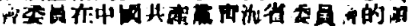會委員在中國共產黨靑海省委員會的領
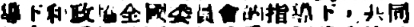導下和政協全國委員會的指導下，共同
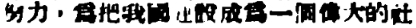努力，爲把我國建設成爲一個偉大的社
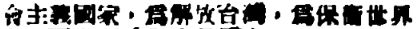會主義國家，爲解放台灣，爲保衛世界
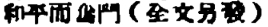和平而奮鬥（全文另發）
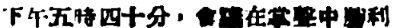下午五時四十分，會議在掌聲中勝利
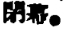閉幕。
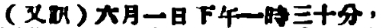（又訊）六月一日下午一時三十分，
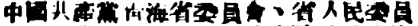中國共產黨靑海省委員會、省人民委員
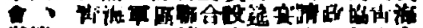會 、靑海軍區聯合設筵宴請政協靑海
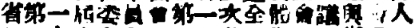省第一屆委員會第一次全體會議與會人
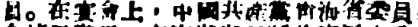員。在宴會上，中國共產黨靑海省委員
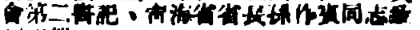會第二書記、靑海省省長孫作賓同志致
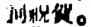詞祝賀。
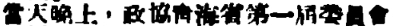當天晚上，政協靑海省第一屆委員會
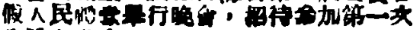假人民禮堂舉行晚會，招待參加第一次
